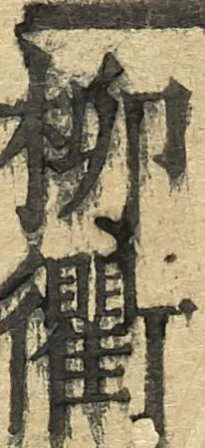柳衢
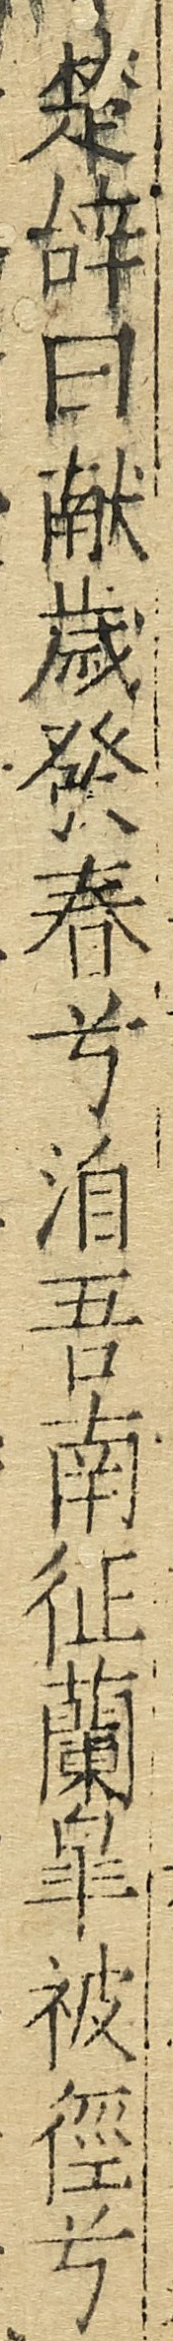楚辭曰獻歲發春兮洎吾南征蘭臯被徑兮
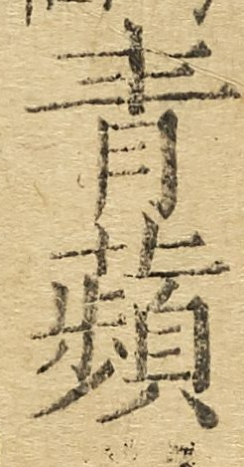青蘋
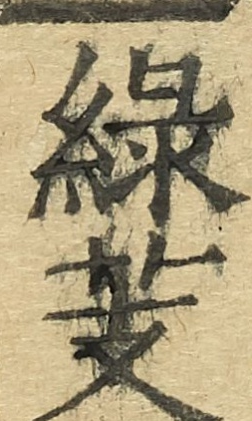綠芰
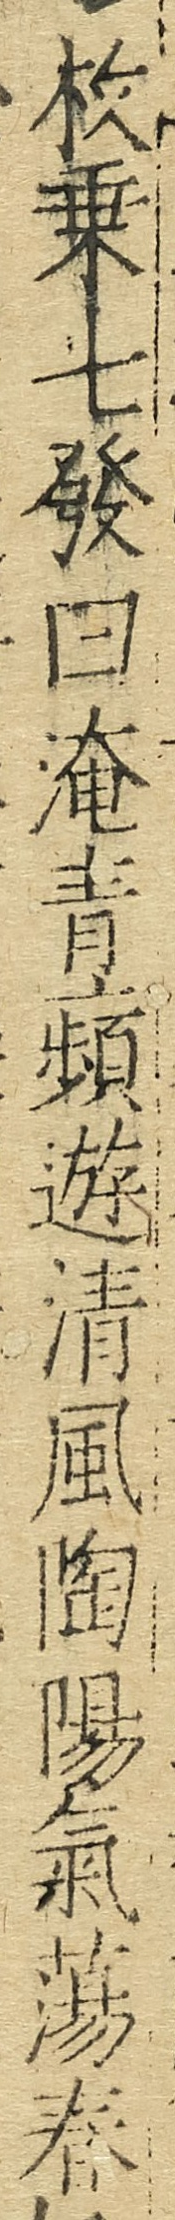枚乘七發曰淹青蘋遊清風陶陽氣蕩春
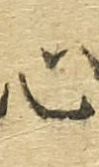心
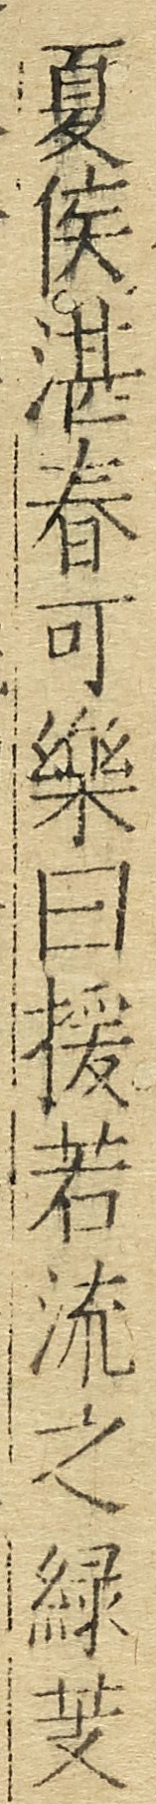夏侯湛春可樂曰援若流之綠芰
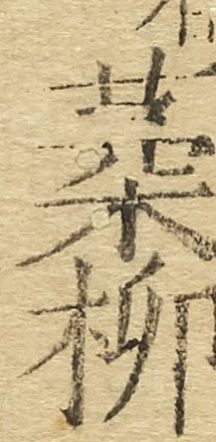葇柳
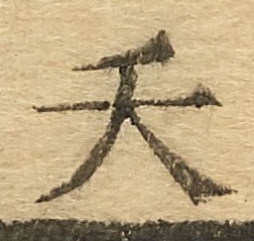夭
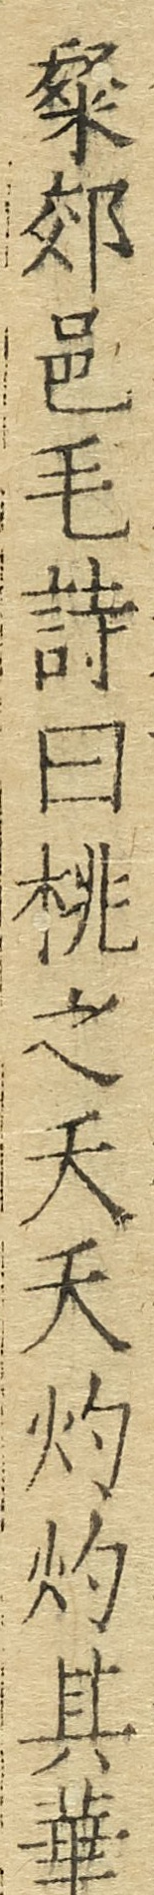粲郊邑毛詩曰桃之夭夭灼灼其華
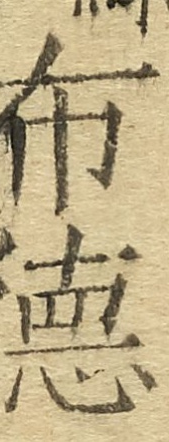布德
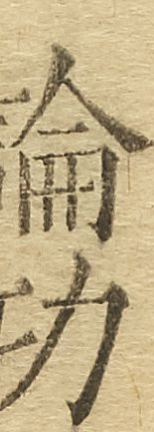論功
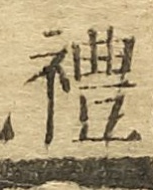禮
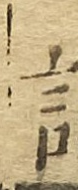記
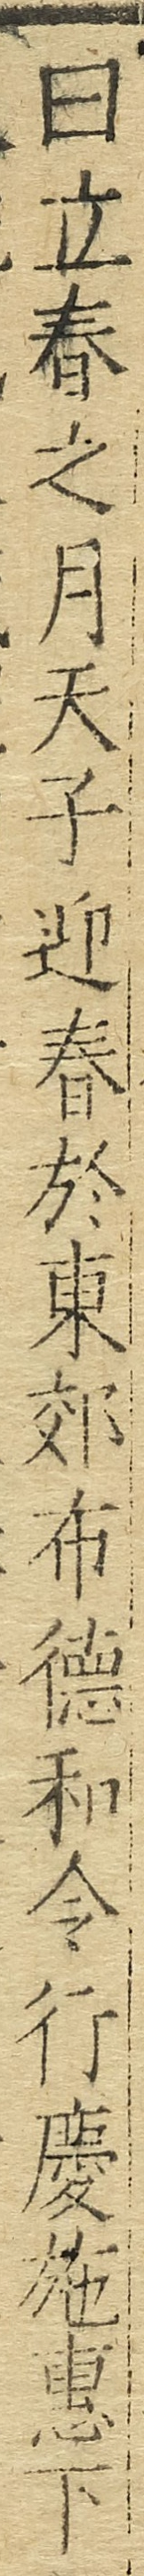曰立春之月天子迎春於東郊布德和令行慶施惠下
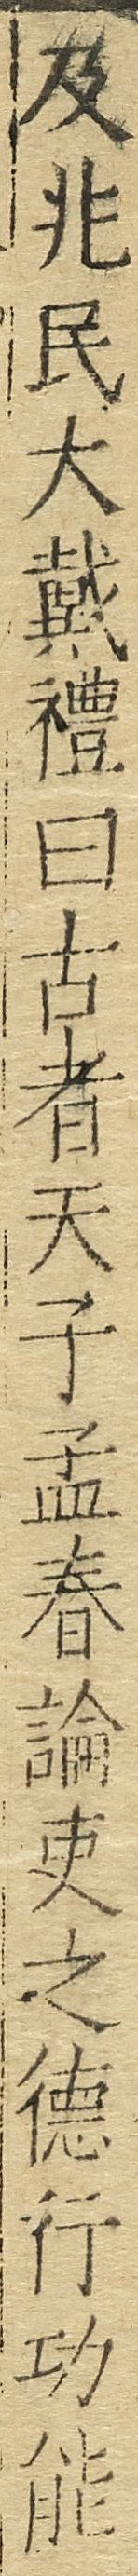及兆民大戴禮曰古者天子孟春論吏之德行功能
